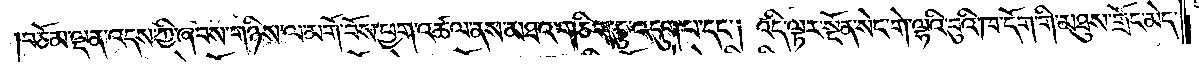བཅོམ་ལྡན་འདས་ཀྱི་ཞབས་གཉིས་ལ་མགོ་བོས་ཕྱག་འཚལ་ནས་མཐའ་གཅིག་ཏུ་འདུག་པ་དང༌། འདི་ལྟར་སྔོན་སེང་གེ་ལྷའི་བུའི་ཁ་དོག་གི་མཐུས་གྲོང་མེད་
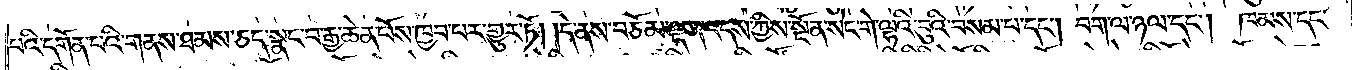པའི་དགོན་པའི་གནས་ཐམས་ཅད་སྣང་བ་རྒྱ་ཆེན་པོས་ཁྱབ་པར་གྱུར་ཏོ། །དེ་ནས་བཅོམ་ལྡན་འདས་ཀྱིས་སྔོན་སེང་གེ་ལྷའི་བུའི་བསམ་པ་དང༌། བག་ལ་ཉལ་དང༌། ཁམས་དང་
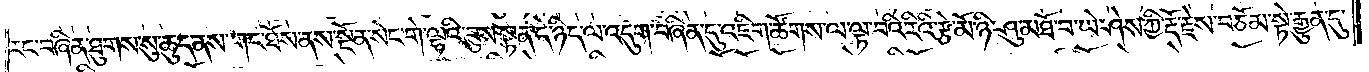རང་བཞིན་ཐུགས་སུ་ཆུད་ནས་གང་ཐོས་ནས་སྔོན་སེང་གེ་ལྷའི་བུས་སྟན་དེ་ཉིད་ལ་འདུག་བཞིན་དུ་འཇིག་ཚོགས་ལ་ལྟ་བའི་རིའི་རྩེ་མོ་ཉི་ཤུ་མཐོ་བ་ཡེ་ཤེས་ཀྱི་རྡོ་རྗེས་བཅོམ་སྟེ་རྒྱུན་དུ་
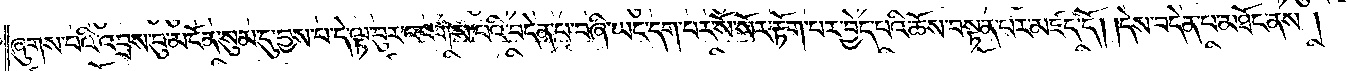ཞུགས་པའི་འབྲས་བུ་མངོན་སུམ་དུ་བྱས་པ་དེ་ལྟ་བུར་འཕགས་པའི་བདེན་པ་བཞི་ཡང་དག་པར་སོ་སོར་རྟོག་པར་བྱེད་པའི་ཆོས་བསྟན་པར་མཛད་དོ། །དེས་བདེན་པ་མཐོང་ནས།
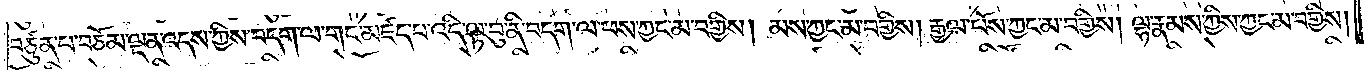བཙུན་པ་བཅོམ་ལྡན་འདས་ཀྱིས་བདག་ལ་གང་མཛད་པ་འདི་ལྟ་བུ་ནི་བདག་ལ་ཕས་ཀྱང་མ་བགྱིས། མས་ཀྱང་མ་བགྱིས། རྒྱལ་པོས་ཀྱང་མ་བགྱིས། ལྷ་རྣམས་ཀྱིས་ཀྱང་མ་བགྱིས།
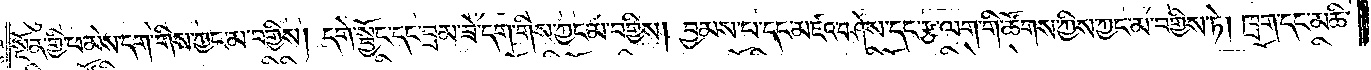སྔོན་གྱི་ཕ་མེས་དག་གིས་ཀྱང་མ་བགྱིས། དགེ་སྦྱོང་དང་བྲམ་ཟེ་དག་གིས་ཀྱང་མ་བགྱིས། བྱམས་པ་དང་མཛའ་བཤེས་དང་རྩ་ལག་གི་ཚོགས་ཀྱིས་ཀྱང་མ་བགྱིས་ཏེ། ཁྲག་དང་མཆི་
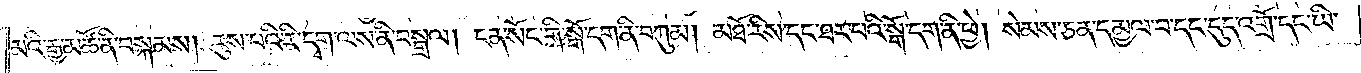མའི་རྒྱ་མཚོ་ནི་བསྐམས། རུས་པའི་རི་དྭགས་ལས་ནི་བསྒྲལ། ངན་སོང་གི་སྒོ་དག་ནི་བཀུམ། མཐོ་རིས་དང་ཐར་པའི་སྒོ་དག་ནི་ཕྱེ། སེམས་ཅན་དམྱལ་བ་དང་དུད་འགྲོ་དང་ཡི་
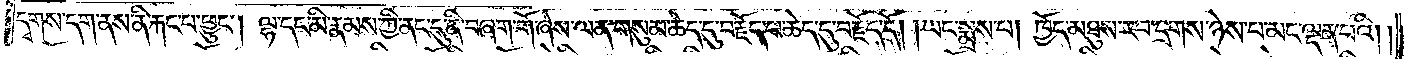དྭགས་དག་ནས་ནི་རྐང་པ་ཕྱུང༌། ལྷ་དང་མི་རྣམས་ཀྱི་ནང་དུ་ནི་བཞག་གོ་ཞེས་ལན་གསུམ་ཆེད་དུ་བརྗོད་པ་ཆེད་དུ་བརྗོད་དོ། །ཡང་སྨྲས་པ། ཁྱོད་མཐུས་རབ་དྲགས་ཉེས་པ་མང་ལྡན་པའི། །
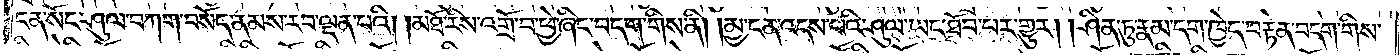ངན་སོང་ཤུལ་བཀག་བསོད་ནམས་རབ་ལྡན་པའི། །མཐོ་རིས་འགྲོ་བ་ཕྱེ་ཞིང་བདག་གིས་ནི། །མྱ་ངན་འདས་པའི་ཤུལ་ཡང་ཐོབ་པར་གྱུར། །ཤིན་ཏུ་རྣམ་དག་ཁྱེད་བརྟེན་བདག་གིས་
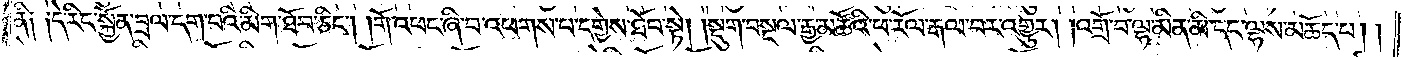ནི༑ ༑དེ་རིང་སྐྱོན་བྲལ་དག་པའི་མིག་ཐོབ་ཅིང༌། །གོ་འཕང་ཞི་བ་འཕགས་པ་དགྱེས་ཐོབ་སྟེ། །སྡུག་བསྔལ་རྒྱ་མཚོའི་ཕ་རོལ་རྡལ་བར་འགྱུར། །འགྲོ་བ་ལྷ་མིན་མི་དང་ལྷས་མཆོད་པ། །
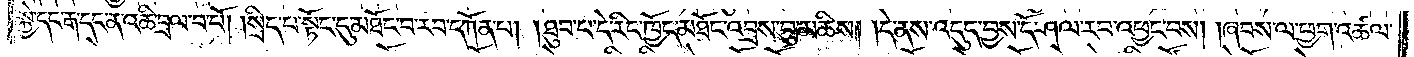སྐྱེ་དང་རྒ་དང་ན་འཆི་བྲལ་བ་བོ། །སྲིད་པ་སྟོང་དུ་མཐོང་བ་རབ་དཀོན་པ། །ཐུབ་པ་དེ་རིང་ཁྱོད་མཐོང་འབྲས་བུ་མཆིས། །དེ་ནས་འདུད་བྱས་དོ་ཤལ་རབ་འཕྱང་བས། །ཞབས་ལ་ཕྱག་འཚལ་
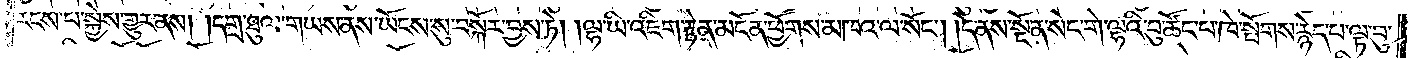རངས་པ་སྐྱེས་གྱུར་ནས། །དགྲ་ཐུལ་གཡས་ནས་ཡོངས་སུ་བསྐོར་བྱས་ཏེ། །ལྷ་ཡི་འཇིག་རྟེན་མངོན་ཕྱོགས་མཁའ་ལ་སོང༌། །དེ་ནས་སྔོན་སེང་གེ་ལྷའི་བུ་ཚོང་པ་ཁེ་སྤོགས་རྙེད་པ་ལྟ་བུ་
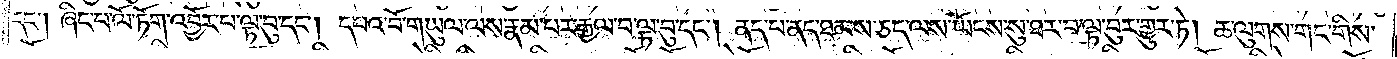དང༌། ཞིང་པ་ལོ་ཏོག་འབྱོར་པ་ལྟ་བུ་དང༌། དཔའ་བོ་གཡུལ་ལས་རྣམ་པར་རྒྱལ་བ་ལྟ་བུ་དང༌། ནད་པ་ནད་ཐམས་ཅད་ལས་ཡོངས་སུ་ཐར་པ་ལྟ་བུར་གྱུར་ཏེ། ཆ་ལུགས་གང་གིས་
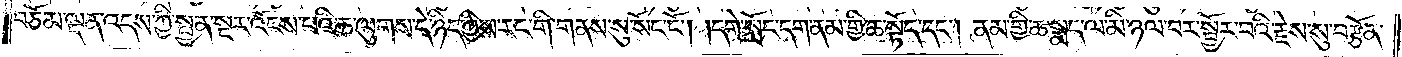བཅོམ་ལྡན་འདས་ཀྱི་སྤྱན་སྔར་འོངས་པའི་ཆ་ལུགས་དེ་ཉིད་ཀྱིས་རང་གི་གནས་སུ་སོང་ངོ༌། །དགེ་སློང་དག་ནམ་གྱི་ཆ་སྟོད་དང༌། ནམ་གྱི་ཆ་སྨད་ལ་མི་ཉལ་བར་སྦྱོར་བའི་རྗེས་སུ་བརྩོན་
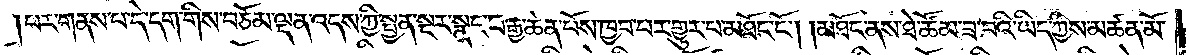པར་གནས་པ་དེ་དག་གིས་བཅོམ་ལྡན་འདས་ཀྱི་སྤྱན་སྔར་སྣང་བ་རྒྱ་ཆེན་པོས་ཁྱབ་པར་གྱུར་པ་མཐོང་ངོ༌། །མཐོང་ནས་ཐེ་ཚོམ་ཟ་བའི་ཡིད་ཀྱིས་མཚན་མོ་
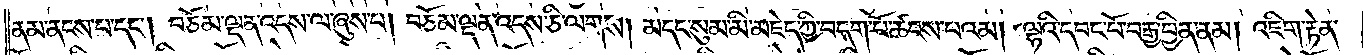ནམ་ནངས་པ་དང༌། བཅོམ་ལྡན་འདས་ལ་ཞུས་པ། བཅོམ་ལྡན་འདས་ཅི་ལགས། མདང་སུམ་མི་མཇེད་ཀྱི་བདག་པོ་ཚངས་པའམ། ལྷའི་དབང་པོ་བརྒྱ་བྱིན་ནམ། འཇིག་རྟེན་
